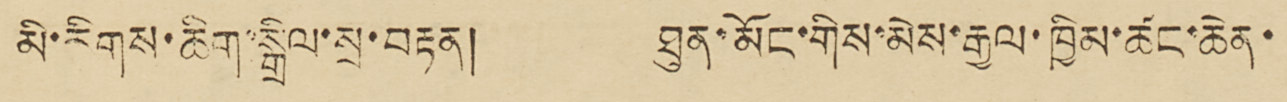མི་རིགས་ཆིག་སྒྲིལ་སྲ་བརྟན། ཐུན་མོང་གིས་མེས་རྒྱལ་ཁྱིམ་ཚང་ཆེན་
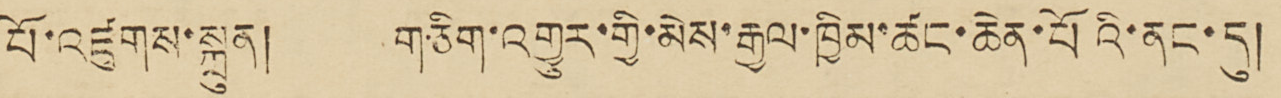པོ་འཛུགས་སྐྲུན། གཅིག་འགྱུར་གྱི་མེས་རྒྱལ་ཁྱིམ་ཚང་ཆེན་པོའི་ནང་དུ།
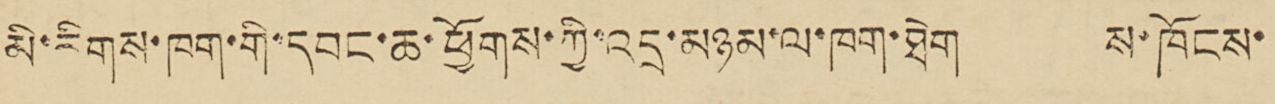མི་རིགས་ཁག་གི་དབང་ཆ་ཕྱོགས་ཀྱི་འདྲ་མཉམ་ལ་ཁག་ཐེག ས་ཁོངས་
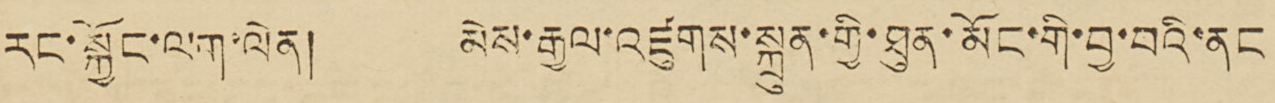རང་སྐྱོང་ལག་ལེན། མེས་རྒྱལ་འཛུགས་སྐྲུན་གྱི་ཐུན་མོང་གི་བྱ་བའི་ནང
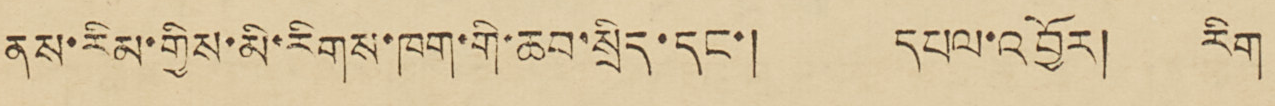ནས་རིམ་གྱིས་མི་རིགས་ཁག་གི་ཆབ་སྲིད་དང་། དཔལ་འབྱོར། རིག
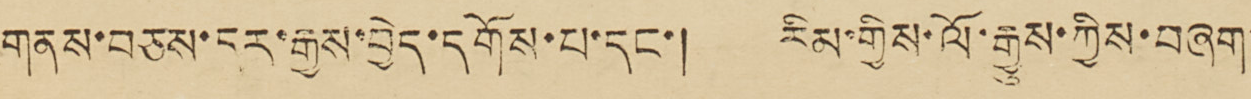གནས་བཅས་དར་རྒྱས་བྱེད་དགོས་པ་དང་། རིམ་གྱིས་ལོ་རྒྱུས་ཀྱིས་བཞག་
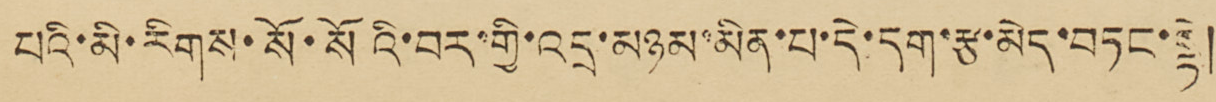པའི་མི་རིགས་སོ་སོའི་བར་གྱི་འདྲ་མཉམ་མིན་པ་དེ་དག་རྩ་མེད་བཏང་སྟེ།
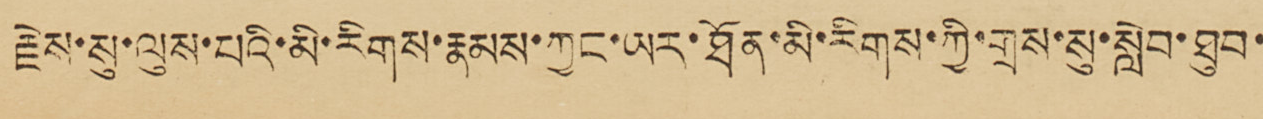རྗེས་སུ་ལུས་པའི་མི་རིགས་རྣམས་ཀྱང་ཡར་ཐོན་མི་རིགས་ཀྱི་གྲས་སུ་སླེབ་ཐུབ་
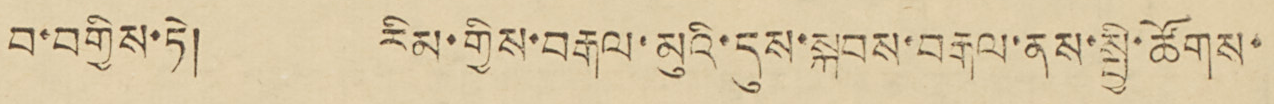བ་བགྱིས་ཏེ། རིམ་གྱིས་བརྒལ་མུའི་དུས་སྐབས་བརྒལ་ནས་སྤྱི་ཚོགས་
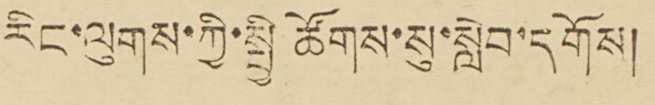རིང་ལུགས་ཀྱི་སྤྱི ཚོགས་སུ་སླེབ་དགོས།
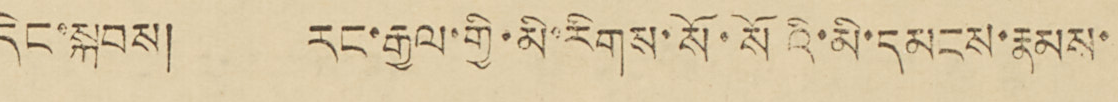དེང་སྐབས། རང་རྒྱལ་གྱི་མི་རིགས་སོ་སོའི་མི་དམངས་རྣམས་
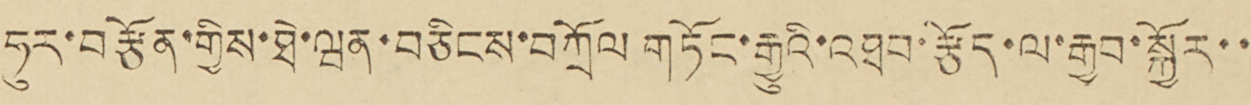ཧུར་བརྩོན་གྱིས་ཐེ་ཝན་བཅིངས་བཀྲོལ གཏོང་རྒྱུའི་འཐབ་རྩོད་ལ་རྒྱབ་སྐྱོར་་
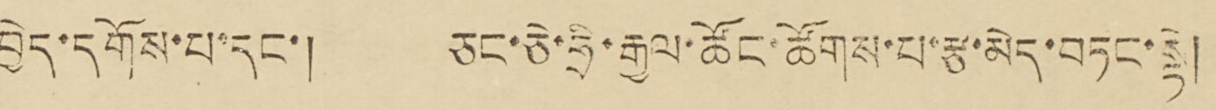བྱེད་དགོས་པ་དང་། ཅང་ཅེ་ཧྲི་རྒྱལ་ཚོང་ཚོགས་པ་རྩ་མེད་བཏང་སྟེ།
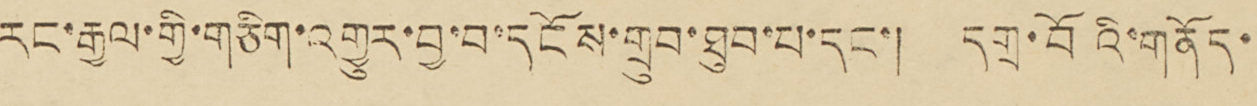རང་རྒྱལ་གྱི་གཅིག་འགྱུར་བྱ་བ་དངོས་གྲུབ་ཐུབ་པ་དང་། དགྲ་བོའི་གནོད་
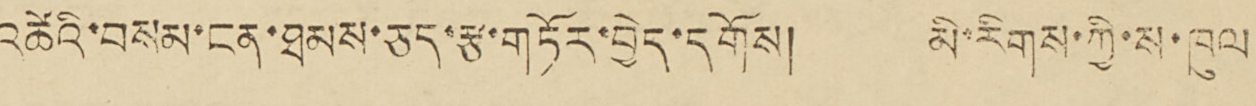འཚེའི་བསམ་ངན་ཐམས་ཅད་རྩ་གཏོར་བྱེད་དགོས། མི་རིགས་ཀྱི་ས་ཁུལ
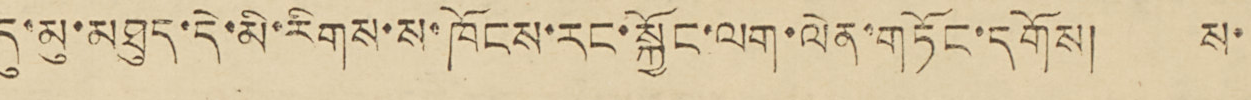དུ་མུ་མཐུད་དེ་མི་རིགས་ས་ཁོངས་རང་སྐྱོང་ལག་ལེན་གཏོང་དགོས། ས་
